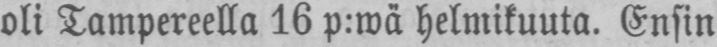oli Tampereella 16 p:wä helmikuuta. Ensin
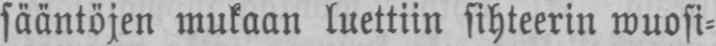sääntöjen mukaan luettiin sihteerin wuosi-
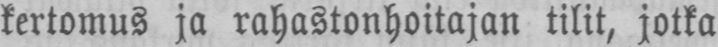kertomus ja rahastonhoitajan tilit, jotka
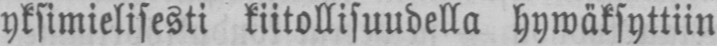yksimielisesti kiitollisuudella hywäksyttiin
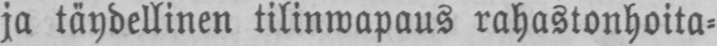ja täydellinen tilinwapaus rahastonhoita-
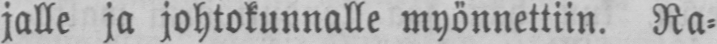jalle ja johtokunnalle myönnettiin. Ra-
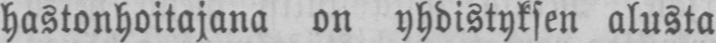hastonhoitajana on yhdistyksen alusta
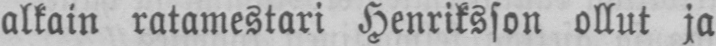alkain ratamestari Henriksson ollut ja
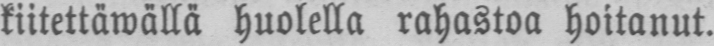kiitettäwällä huolella rahastoa hoitanut.
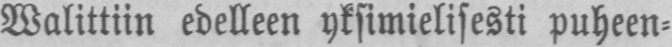Walittiin edelleen yksimielisesti puheen-
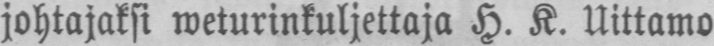johtajaksi weturinkuljettaja H. K. Uittama
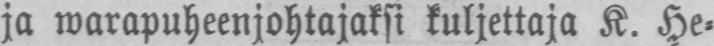ja warapuheenjohtajaksi kuljettaja K. He-
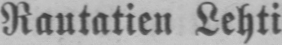Rautatien Lehti
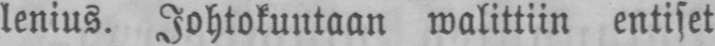lenius. Johtokuntaan walittiin entiset
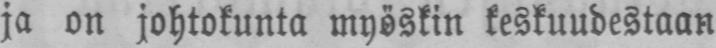ja on johtokunta myöskin keskuudestaan
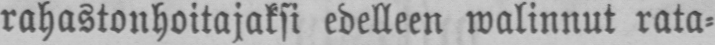rahastonhoitajaksi edelleen walinnut rata-
